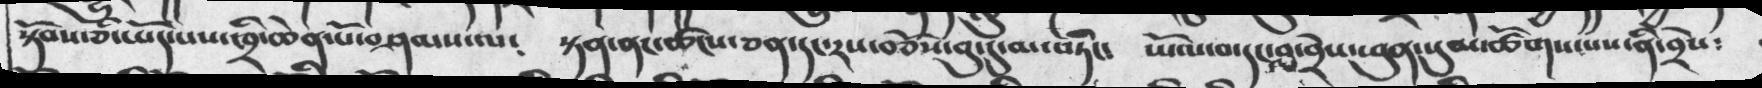སྟོབས་ཅི་ཡོད་ཁྲི་ཆེན་པོ་བཤམས་ལ༴ སྟན་ནང་ཚངས་ཅན་དང་རང་བཅོས་བུ་དུ་མ་བཏིང༴ ཡོལ་བ་དང་བླ་བྲེས་ཕུན་སུམ་ཚོགས་པས་ནི་བྲེས༴
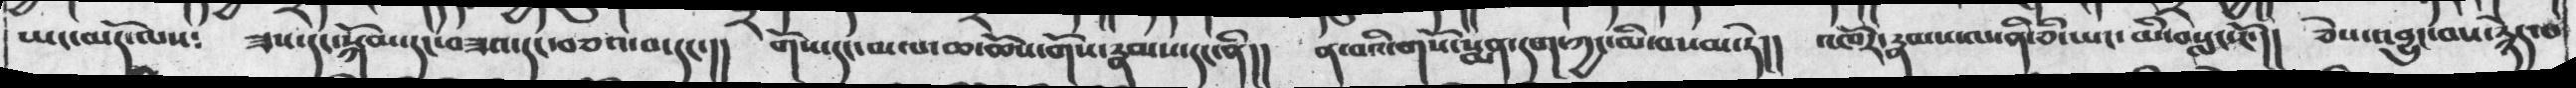ཡང་མདོ་ལས༴ ཟས་དང་སྐོམ་དང་བཟའ་དང་བཅའ་བ་དང་།། གོས་དང་མལ་ཆ་ཆོས་གོས་རྣམས་དང་ནི།། ན་བའི་གསོ་སྨན་དག་ཀྱང་མི་བསམ་ཏེ།། འཁོར་རྣམས་ལ་ནི་ཅི་ཡང་མི་བསླང་ངོ་།། ཅེས་འབྱུང་བས་རྙེད་བ
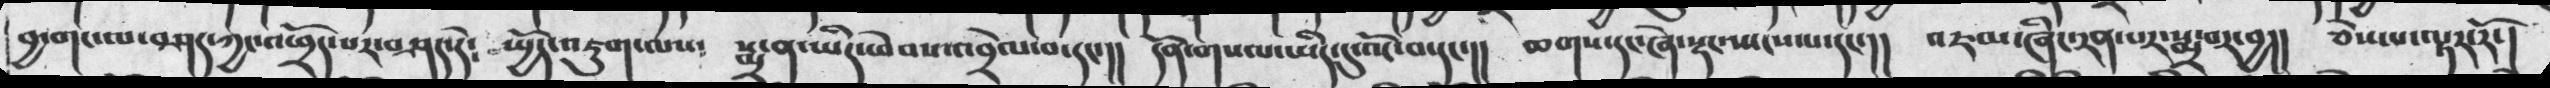བྱ་གང་ལ་བཤད་ཀྱང་འཕྲོད་པར་བཤད་དེ༴ སྤྱོད་འཇུག་ལས༴ སྨྲ་ན་ཡིད་ཕེབས་འབྲེལ་བ་དང་།། དོན་གསལ་ཡིད་དུ་འོང་བ་དང་།། ཆགས་དང་ཞེ་སྡང་སྤངས་པ་དང་།།  འཇམ་ཞིང་རན་པར་སྨྲ་བར་བྱ།།  ཅེས་པ་ལྟར་རོ་།
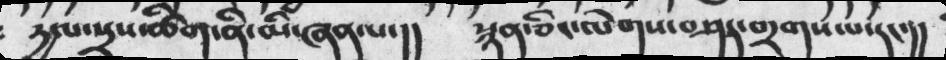དྱལ་སྲས་ཚིག་ནི་མི་ཞན་པ་།།  སྙན་ཅིང་ལེགས་བཤད་གྲགས་པ་དང་།།
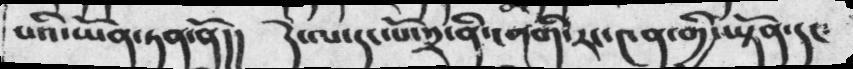པའི་ཡོན་ཏན་ནོ།།  དེ་ལ་དང་པོ་༢་ནི་ངགགི་རང་༤ན་གྱི་ཡྟོན་དང༴
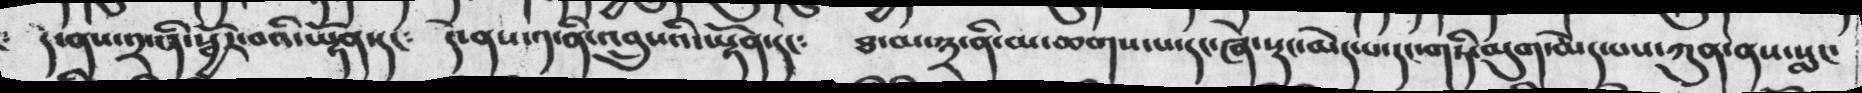དེ་ནས་༢་ནི་སྦྱོར་བའི་ཡྟོན་དང༴  དེ་ནས་༡་ནི་འབྲུསའི་ཡྟོན་དང༴  ཐ་མ་༣་ནི་མ་ཆགས་པ་དང་ཞེ་སྡང་མེད་པ་དང་གཏི་མུག་མེད་པས་ཀུན་ནས་སླང་
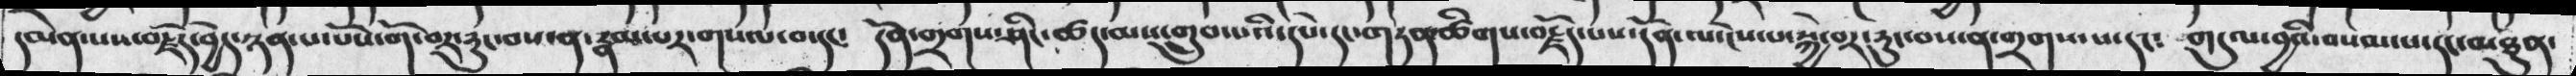དམན་པས་བརྗོད་བྱེད་ཉན་པ་པོས་གོ་བར་རུང་བས་ན་རྣམ་པར་གསལ་བ་དང༴  དོན་གྲགས་ཤིང་ཚད་མས་གྲུབ་པའི་དཔེ་དང་གཏན་ཚིགས་བརྗོད་པས་དོན་ལ་ངེས་པ་སྐྱེ་བར་རུང་བས་ན་གྲགས་པ་དང༴  གདུལ་བྱའི་བསམ་པ་དང་མཐུན་
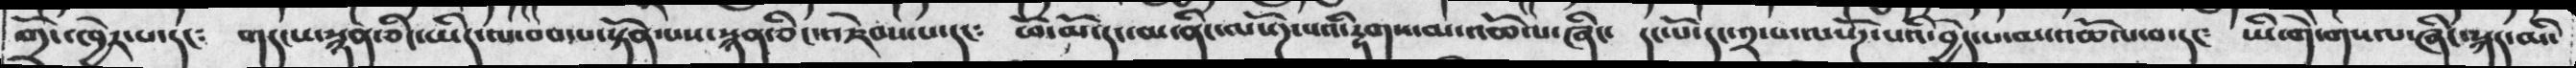གྲོང་ཁྱེར་པ་དང༴  གདངས་སྙན་ཅིང་ཡིད་ལ་བབ་པ་སྟོན་པས་སྙན་ཅིང་འཇེབས་པ་དང༴  ཕོ་མོ་དང་མ་ནིང་ལསོཌ་པའི་རྟགས་མ་འཆོལ་ཞིང་  དང་པོ་དང་༢་པ་ལསོཌ་པའི་བྱེད་པ་མ་འཆོལ་བ་དང༴  ཡི་གེ་གསལ་ཞིང་སྐད་མི་
